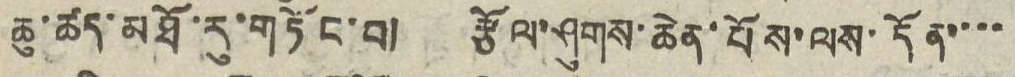ཆུ་ཚད་མཐོ་རུ་གཏོང་བ། རྩོལ་ཤུགས་ཆེན་པོས་ལས་དོན་་་་
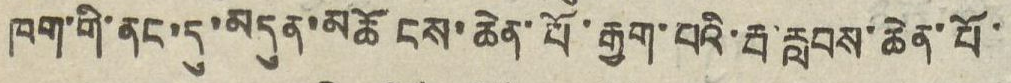ཁག་གི་ནང་དུ་མདུན་མཆོངས་ཆེན་པོ་རྒྱག་པའི་རྦ་རླབས་ཆེན་པོ་
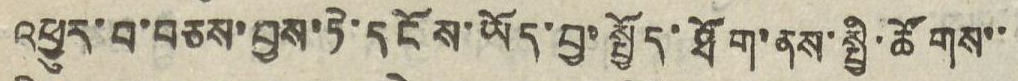འཕྱུར་བ་བཅས་བྱས་ཏེ་དངོས་ཡོད་བྱ་སྤྱོད་ཐོག་ནས་སྤྱི་ཚོགས་
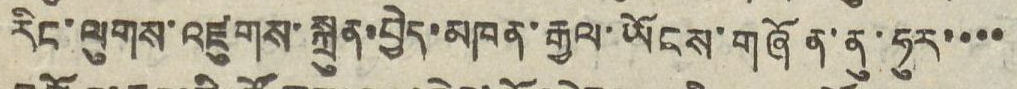རིང་ལུགས་འཛུགས་སྐྲུན་བྱེད་མཁན་རྒྱལ་ཡོངས་གཞོན་ནུ་ཧུར་་་་
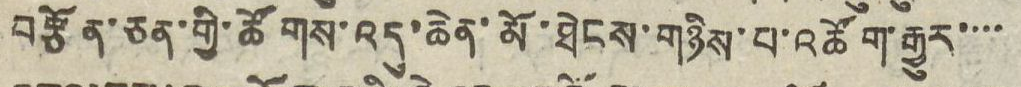བརྩོན་ཅན་གྱི་ཚོགས་འདུ་ཆེན་མོ་ཐེངས་གཉིས་པ་འཚོག་རྒྱུར་་་་
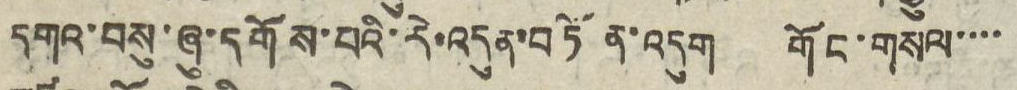དགའ་བསུ་ཞུ་དགོས་པའི་རེ་འདུན་བཏོན་འདུག གོང་གསལ་་་་
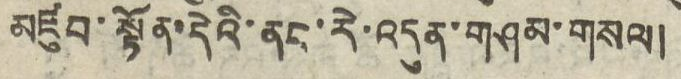མཛུབ་སྟོན་དེའི་ནང་རེ་འདུན་གཤམ་གསལ།
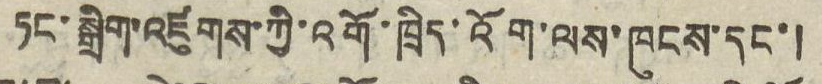ཏང་སྒྲིག་འཛུགས་ཀྱི་འགོ་ཁྲིད་འོག་ལས་ཁུངས་དང་།
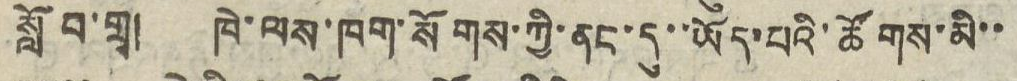སློབ་གྲྭ། ཁེ་ལས་ཁག་སོགས་ཀྱི་ནང་དུ་་ཡོད་པའི་ཚོགས་མི་་
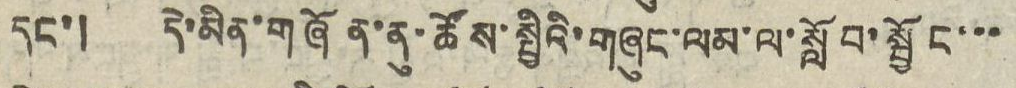དང་། དེ་མིན་གཞོན་ནུ་ཚོས་སྤྱིའི་གཞུང་ལམ་ལ་སློབ་སྦྱོང་་་
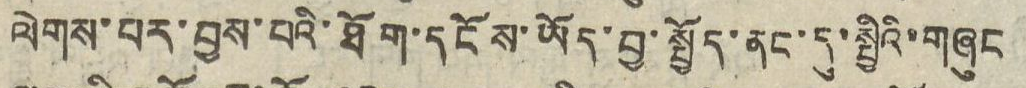ལེགས་པར་བྱས་པའི་ཐོག་དངོས་ཡོད་བྱ་སྤྱོད་ནང་དུ་སྤྱིའི་གཞུང
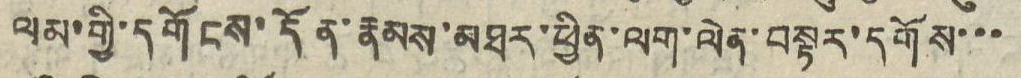ལམ་གྱི་དགོངས་དོན་རྣམས་མཐར་ཕྱིན་ལག་ལེན་བསྟར་དགོས་་་
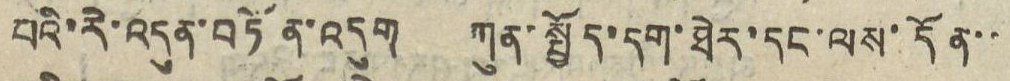པའི་རེ་འདུན་བཏོན་འདུག ཀུན་སྤྱོད་དག་ཐེར་དང་ལས་དོན་་
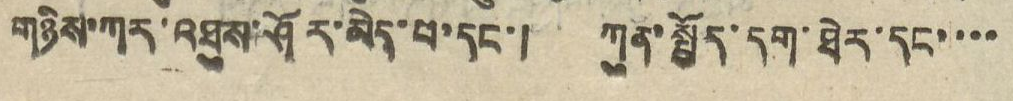གཉིས་ཀར་འཐུས་ཤོར་མེད་པ་དང་། ཀུན་སྤྱོད་དག་ཐེར་དང་་་་
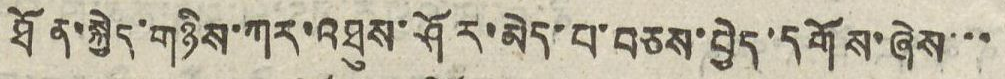ཐོན་སྐྱེད་གཉིས་ཀར་འཐུས་ཤོར་མེད་པ་བཅས་བྱེད་དགོས་ཞེས་་་
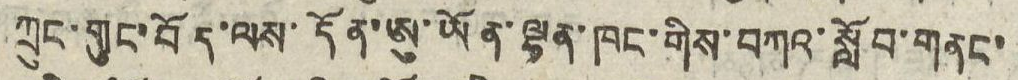ཀྲུང་གུང་བོད་ལས་དོན་ཨུ་ཡོན་ལྷན་ཁང་གིས་བཀའ་སློབ་གནང་
